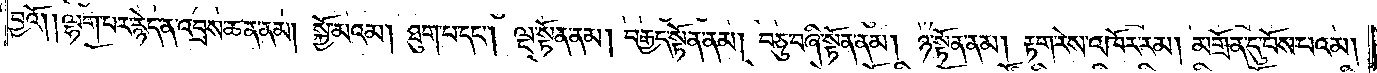བྱའོ། །ལྷག་པར་རྙེད་ན་འབྲས་ཆན་ནམ། སྐྱོ་མའམ། ཐུག་པ་དང༌། ལྔ་སྟོན་ནམ། བརྒྱད་སྟོན་ནམ། བཅུ་བཞི་སྟོན་ནམ། ཉ་སྟོན་ནམ། རྟག་རེས་འཁོར་རམ། མགྲོན་དུ་བོས་པའམ།
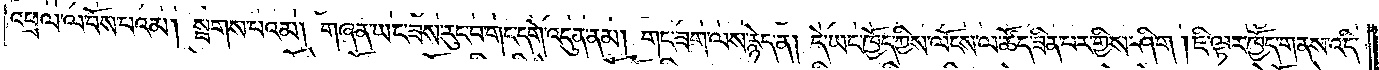འཕྲལ་ལ་བོས་པའམ། སྦགས་པའམ། གཞན་ཡང་ཟས་རུང་བ་གང་དགེ་འདུན་ནམ། གང་ཟག་ལས་རྙེད་ན། དེ་ཡང་ཁྱོད་ཀྱིས་ལོངས་ལ་ཚོད་ཟིན་པར་གྱིས་ཤིག །ཇི་ལྟར་ཁྱོད་གནས་འདི་
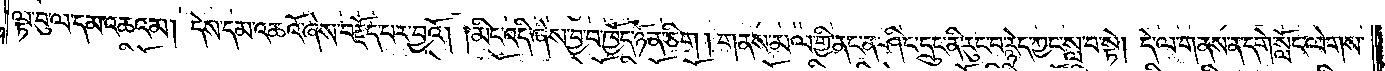ལྟ་བུ་ལ་དམ་འཆའམ། དེས་དམ་འཆའོ་ཞེས་བརྗོད་པར་བྱའོ། །མིང་འདི་ཞེས་བྱ་བ་ཁྱོད་ཉོན་ཅིག །གནས་མལ་གྱི་ནང་ན་ཤིང་དྲུང་ནི་རུང་བ་རྙེད་ཀྱང་སླ་བ་སྟེ། དེ་ལ་གནས་ན་དགེ་སློང་ལེགས་
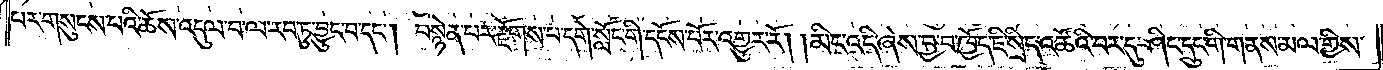པར་གསུངས་པའི་ཆོས་འདུལ་བ་ལ་རབ་ཏུ་བྱུང་བ་དང༌། བསྙེན་པར་རྫོགས་པ་དགེ་སློང་གི་དངོས་བོར་འགྱུར་རོ། །མིང་འདི་ཞེས་བྱ་བ་ཁྱོད་ཇི་སྲིད་འཚོའི་བར་དུ་ཤིང་དྲུང་གི་གནས་མལ་གྱིས་
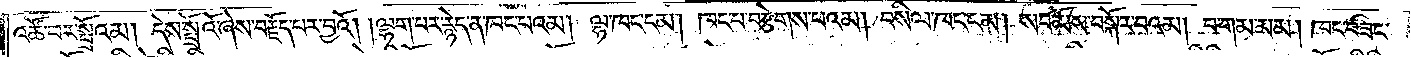འཚོ་བར་སྤྲོའམ། དེས་སྤྲོའོ་ཞེས་བརྗོད་པར་བྱའོ། །ལྷག་པར་རྙེད་ན་ཁང་པའམ། ལྷ་ཁང་ངམ། ཁང་པ་བརྩེགས་པའམ། བསིལ་ཁང་ངམ། སབ་མོས་བསྐོར་བའམ། བ་གམ་མམ། ཁང་བཟང་
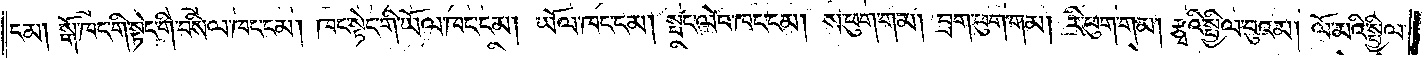ངམ། སྒོ་ཁང་གི་སྟེང་གི་བསིལ་ཁང་ངམ། ཁང་སྟེང་གི་ཡོལ་ཁང་ངམ། ཡོལ་ཁང་ངམ། སྤང་ལེབ་ཁང་ངམ། ས་ཕུག་གམ། བྲག་ཕུག་གམ། རི་ཕུག་གམ། རྩྭའི་སྤྱིལ་བུའམ། ལོ་མའི་སྤྱིལ་
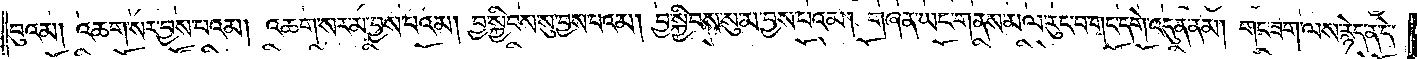བུའམ། འཆག་སར་བྱས་པའམ། འཆག་སར་མ་བྱས་པའམ། བྱ་སྐྱིབས་སུ་བྱས་པའམ། བྱ་སྐྱིབས་སུ་མ་བྱས་པའམ། གཞན་ཡང་གནས་མལ་རུང་བ་གང་དགེ་འདུན་ནམ། གང་ཟག་ལས་རྙེད་ན་དེ་
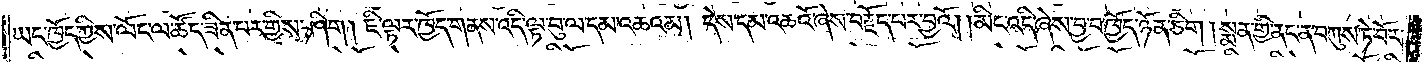ཡང་ཁྱོད་ཀྱིས་ལོང་ལ་ཚོད་ཟིན་པར་གྱིས་ཤིག། ཇི་ལྟར་ཁྱོད་གནས་འདི་ལྟ་བུ་ལ་དམ་འཆའམ། དེས་དམ་འཆའོ་ཞེས་བརྗོད་པར་བྱའོ། །མིང་འདི་ཞེས་བྱ་བ་ཁྱོད་ཉོན་ཅིག །སྨན་གྱི་ནང་ན་བཀུས་ཏེ་བོར་
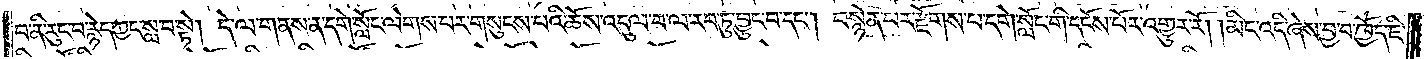བ་ནི་རུང་བ་རྙེད་ཀྱང་སླ་བ་སྟེ། དེ་ལ་གནས་ན་དགེ་སློང་ལེགས་པར་གསུངས་པའི་ཆོས་འདུལ་བ་ལ་རབ་ཏུ་བྱུང་བ་དང༌། བསྙེན་པར་རྫོགས་པ་དགེ་སློང་གི་དངོས་པོར་འགྱུར་རོ། །མིང་འདི་ཞེས་བྱ་བ་ཁྱོད་ཇི་
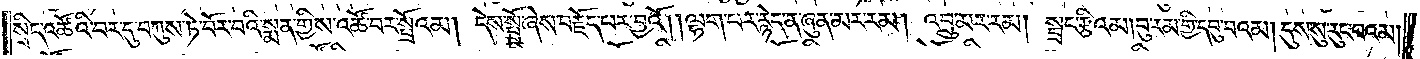སྲིད་འཚོའི་བར་དུ་བཀུས་ཏེ་བོར་བའི་སྨན་གྱིས་འཚོ་བར་སྤྲོའམ། དེས་སྤྲོ་ཞེས་བརྗོད་པར་བྱའོ། །ལྷག་པར་རྙེད་ན་ཞུན་མར་རམ། འབྲུ་མར་རམ། སྦྲང་རྩིའམ།བུ་རམ་གྱི་དབུ་བའམ།དུས་སུ་རུང་བའམ།
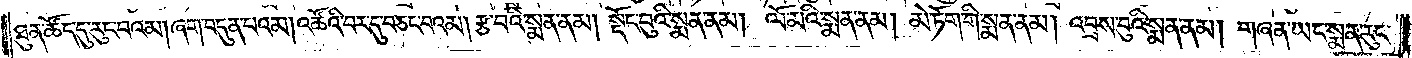ཐུན་ཚོད་དུ་རུང་བའམ།ཞག་བདུན་པའམ།འཚོའི་བར་དུ་བཅང་བའམ།རྩ་བའི་སྨན་ནམ། སྡོང་བུའི་སྨན་ནམ། ལོ་མའི་སྨན་ནམ། མེ་ཏོག་གི་སྨན་ནམ། འབྲས་བུའི་སྨན་ནམ། གཞན་ཡང་སྨན་རུང་
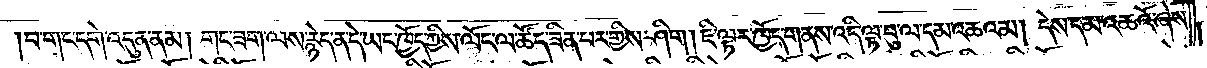བ་གང་དགེ་འདུན་ནམ། གང་ཟག་ལས་རྙེད་ན་དེ་ཡང་ཁྱོད་ཀྱིས་ལོང་ལ་ཚོད་ཟིན་པར་གྱིས་ཤིག། ཇི་ལྟར་ཁྱོད་གནས་འདི་ལྟ་བུ་ལ་དམ་འཆའམ། དེས་དམ་འཆའོ་ཞེས་
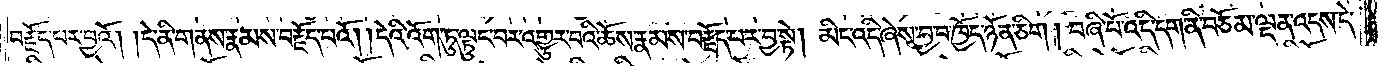བརྗོད་པར་བྱའོ། །དེ་ནི་གནས་རྣམས་བརྗོད་པའོ། །དེའི་འོག་ཏུ་ལྟུང་བར་འགྱུར་བའི་ཆོས་རྣམས་བརྗོད་པར་བྱ་སྟེ། མིང་འདི་ཞེས་བྱ་བ་ཁྱོད་ཉོན་ཅིག །བཞི་པོ་འདི་དག་ནི་བཅོམ་ལྡན་འདས་དེ་
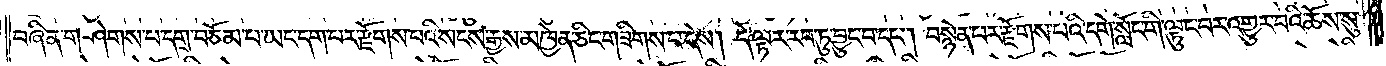བཞིན་གཤེགས་པ་དགྲ་བཅོམ་པ་ཡང་དག་པར་རྫོགས་པའི་སངས་རྒྱས་མཁྱེན་ཅིང་གཟིགས་པ་དེས། དེ་ལྟར་རབ་ཏུ་བྱུང་བ་དང༌། བསྙེན་པར་རྫོགས་པའི་དགེ་སློང་གི་ལྟུང་བར་འགྱུར་བའི་ཆོས་སུ་
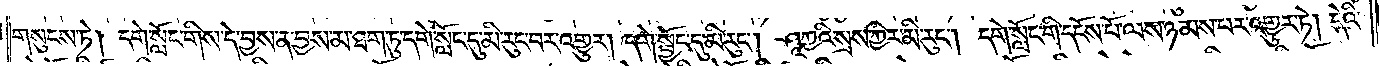གསུངས་ཏེ། དགེ་སློང་གིས་དེ་བྱས་ན་བྱས་མ་ཐག་ཏུ་དགེ་སློང་དུ་མི་རུང་བར་འགྱུར། དགེ་སྦྱོང་དུ་མི་རུང༌། ཤཱཀྱའི་སྲས་ཀྱིར་མི་རུང༌། དགེ་སློང་གི་དངོས་པོ་ལས་ཉམས་པར་འགྱུར་ཏེ། དེའི་
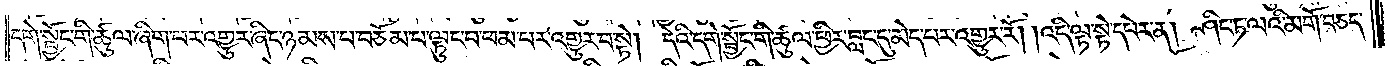དགེ་སྦྱོང་གི་ཚུལ་ཞིག་པར་འགྱུར་ཞིང་ཉམས་པ་བཅོམ་པ་ལྟུང་བ་ཕམ་པར་འགྱུར་བ་སྟེ། དེའི་དགེ་སྦྱོང་གི་ཚུལ་ཕྱིར་བླང་དུ་མེད་པར་འགྱུར་རོ། །འདི་ལྟ་སྟེ་དཔེར་ན། ཤིང་ཏ་ལའི་མགོ་བཅད་
